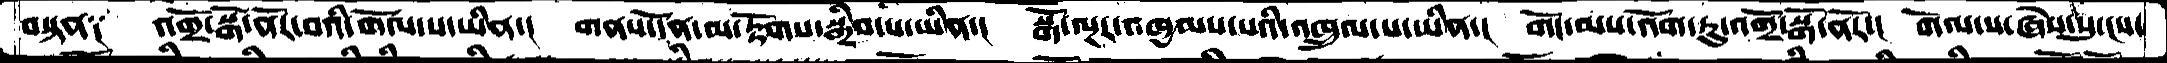བསྟན༑  འགྲོ་སྒོ་ནོར་བའི་གོལ་ས་ཡིན་།  གནས་དོན་མ་རྟོགས་སྒྲིབ་པ་ཡིན་།  སྒོ་ལྔར་འཁྱམས་པའི་འཁྲུལ་པ་ཡིན་།  གོང་མས་འོག་ཏུ་འགྲོ་སྒོ་ནོར་།  གོལ་ས་ཞེས་སུ་ངས་
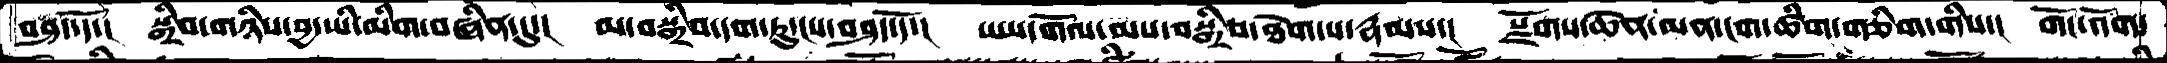བཤད་དོ་།  སྒྲིབ་གཉིས་བྱ་ཡི་མིག་བཞིན་དུ་།  མ་བསྒྲིབ་དག་ཏུ་ངས་བཤད་དོ་།  ཡས་གོལ་མས་བསྒྲིབ་ཐེག་པ་རྣམས་།  སྫོགས་ཆེན་མན་ངག་ཚིག་གཅིག་གིས་།  གོང་འོག་
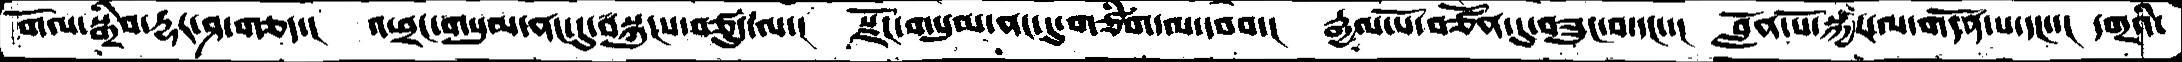གོལ་སྒྲིབ་རྡར་ཤ་གཅད་།  འཕྲང་གསུམ་ནང་དུ་བསྐུངས་བཙུད་ལ་།  སྫོང་གསུམ་ནང་དུ་གཅིག་ལ་དབབ་།  རྒྱལ་པོ་བཙོན་དུ་བཟུང་བ་དང་་།  བློན་པོ་སྐྱར་ལ་གདོན་པ་དང་་།  དགྲའི་
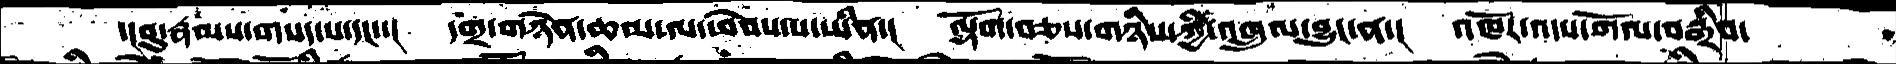་།བུ་རྣམས་གསད་པ་དང་་།  དགྲ་གཉེན་ཆམ་ལ་ཕེབས་པ་ཡིན་།  ལྡོག་བཅས་གཉིས་ཀྱི་འཁྲུལ་བྱུང་ན་།  འཁོར་འདས་གོལ་བསྒྲིབ་
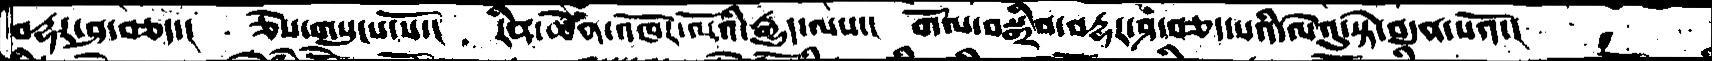བརྡར་ཤ་བཅད་།  ཅེས་གསུངས་སོ་།  རིན་ཆེན་འཁོར་ལོའི་རྒྱུད་ལས་།  གོལ་བསྒྲིབ་བརྡལ་ཤ་བཅད་པའི་ལེའུ་སྟེ་བདུན་པའོ་།
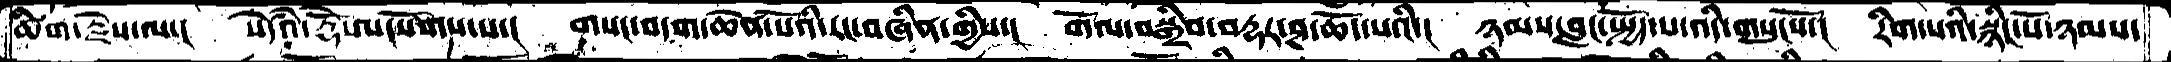ཚིག་རྗེས་ལ་།  སེདའཾ་རྡོེ་ལ་སོགས་པ་།  གསང་བདག་ཆེན་པོའི་རང་བཞིན་གྱིས་།  གོལ་བསྒྲིབ་བརྡར་ཤ་ཆོད་པའི་།  ཉམས་བླང་སྤྱོད་པ་འདི་གསུངསོ་།  རིག་པའི་སྙིང་པོ་ཉམས་
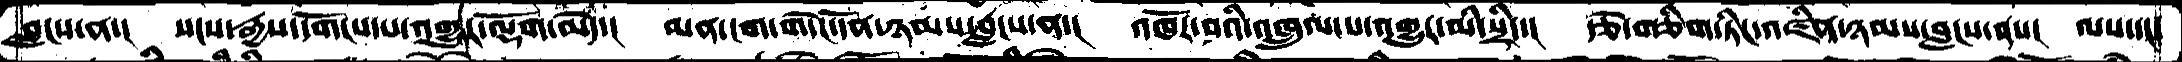བླངས་ནས་།  སངས་རྒྱས་དགོངས་པ་འགྱུར་ལྡོག་མེེད་།  མན་ངག་གདེང་དོན་ཉམས་བླངས་ན་།  འཁོར་བའི་འཁྲུལ་པ་འགྱུར་མིི་སྲིད་།  རྩེ་གཅིག་ཏིང་འཛིན་ཉམས་བླངས་ནས།  ལས་དང་
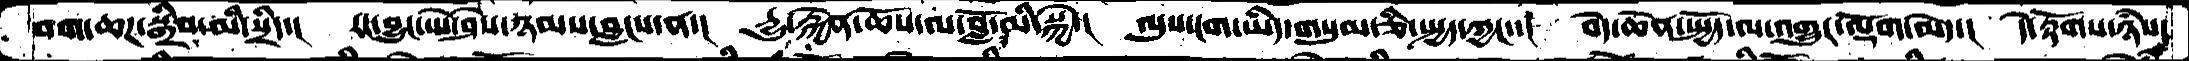བག་ཆཌ་སྒྲིབ་མི་སྲིད་།  རང་བྱུང་ཡེ་ཤེས་ཉམས་བླངས་ན་།  དྱུ་རྐྱེན་ཆོས་ལ་བློ་མི་སྐྱ་ེ།  ལུས་ངག་ཡིད་གསུམ་ཅི་སྤྱད་ཀྱང་་།  བདེ་ཆེན་སྤྱོད་ལ་འགྱུར་ལྡོག་མེད་།  དེ་རྟོགས་ཉཾས་
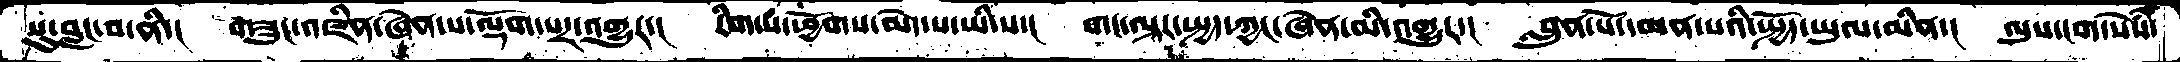སུ་བླང་བ་ནི་།  གཟུང་འཛིན་ཞེན་པ་ལྡོག་པར་འགྱུར་།  རིག་པ་ཕྱོགས་མེད་པ་ཡི་ས་།  གང་ལྟར་སྤྱད་ཀྱང་ཞེན་མི་འགྱུར་།  བླུན་པོ་དམན་པའི་སྤྱོད་ཡུལ་མིན་།  ལུས་ངག་སེཾས་
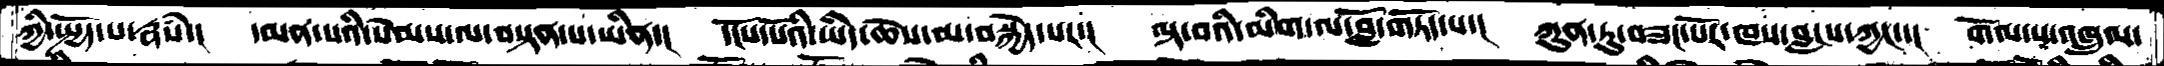ཀྱི་སྤྱོད་པ་རྣཾས་།  དམན་པའི་སེམས་ལ་བསྟན་པ་ཡིན་།  དངོས་པོའི་ཡིད་ཆེས་མ་བསྐྱེད་པར་།  ལྟ་བའི་མིག་ལ་བློ་གཏོད་པ་།  ཀུན་ཏུ་བཟང་པོར་ཁས་བླངས་ཀྱང་་།  གོལ་ས་འཁྲུལ་
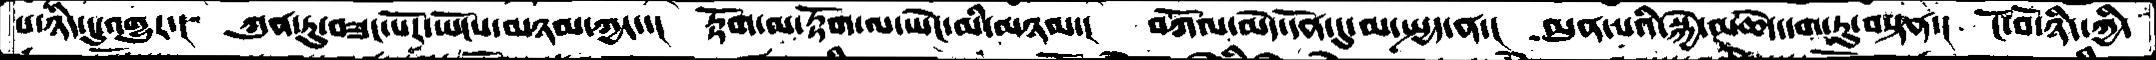པ་ཉིད་དུ་འགྱུར་།  ཀུན་ཏུ་བཟང་པོར་ཡོངས་མཉམ་ཀྱང་་།  རྟོག་མ་རྟོག་ལ་ཡེང་མི་མཉམ་།  བཀོལ་མེད་དོན་དུ་མ་སྤྱད་ན་།  མུན་པའི་སྐྱེ་མཆེད་དག་ཏུ་བསྟན་།  ངོ་བོ་ཉིད་ཀྱི་
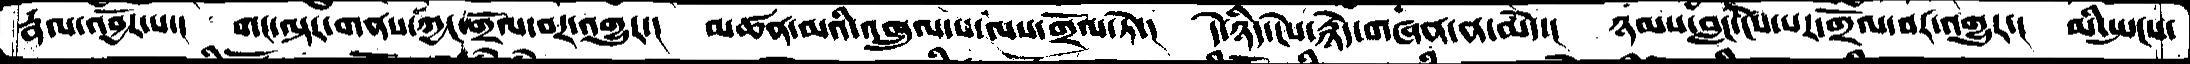རྣལ་འབྱོར་པ་།  གང་ལྟར་གནས་ཀྱང་གྲོལ་བར་འགྱུར་།  མཚན་མའི་འཁྲུལ་པ་ལས་གྲོལ་ཏེ་།  དེ་ཉིད་ངེས་རྙེད་གཞན་ན་མེད་།  ཉམས་བླང་ངེས་པར་གྲོལ་བར་འགྱུར་།  མི་སྤངས་
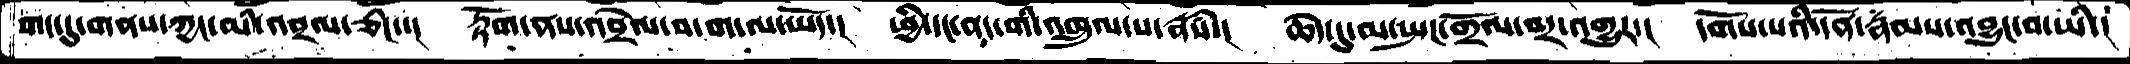གང་དུ་གནས་ཀྱང་མི་འབྲལ་ཅིང་་།  རྟོག་ནས་འབྲེལ་བ་ག་ལ་ཡོད་།  ཕྱི་དང་ནང་གི་འཁྲུལ་པ་རྣཾས་།  ཆེད་དུ་མ་སྤང་གྲོལ་བར་འགྱུར་།  དགོས་པའི་དོན་རྣམས་འབྱུང་བ་ཡི་།
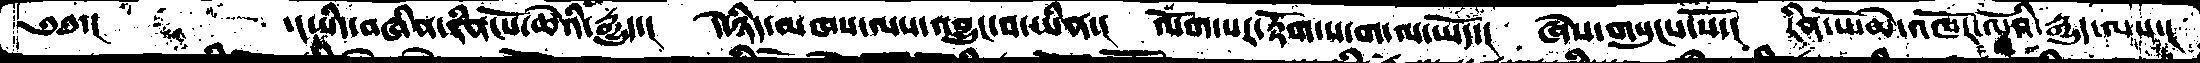༄༅་།       ་།ཡིད་བཞིན་རིན་པོ་ཆེའི་རྒྱུད་།  དེ་ཉིད་མཁས་ལས་འབྱུང་བ་ཡིན་།  ལོག་པར་རྟོག་པ་ག་ལ་ཡོད་།  ཞེས་གསུངས་སོ་།  རིན་པོ་ཆེ་འཁོར་ལོའི་རྒྱུད་ལས་།
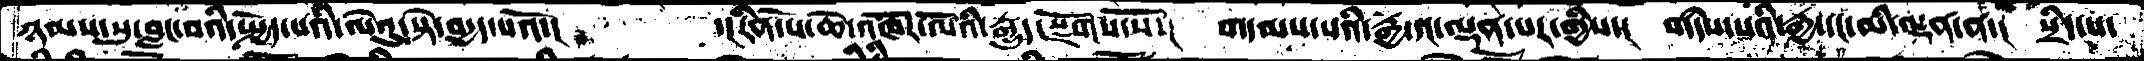ཉམས་སུ་བླང་བའི་སྤྱོད་པའི་ལེའུ་སྟེ་བདྱད་པའོ་།     ་།རིན་པོ་ཆེ་འཁོར་ལོའི་རྒྱུད་སྫོགས་སོ་།  གདམས་པའི་རྒྱ་དང་ལྡན་པར་གྱིས་།  གདཾས་པའི་རྒྱ་དང་མི་ལྡན་ན་།  སྲིད་པ་
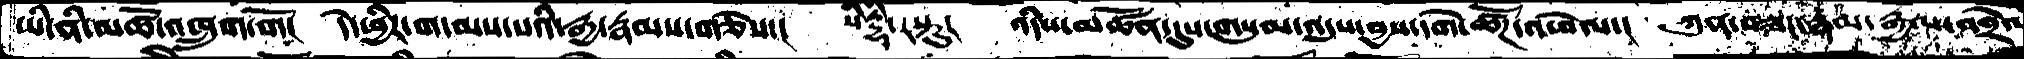ཡི་ནི་མཚོ་འཁྲུག་གོ།  དེ་ཕྱིར་གདམས་པའི་རྒྱ་རྣམས་གཅེས་།  སིདྡྷི་རསྟུ།   འདིས་མཚོན་དུས་གསུམ་འདུས་བྱས་དགེ་ཚོཌ་འཕེལ་།  ཀུན་བཟང་རྣམ་རྒྱལ་འགྲེལ
